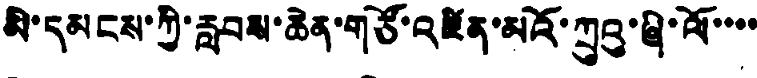མི་དམངས་ཀྱི་རླབས་ཆེན་གཙོ་འཛིན་མའོ་ཀུའུ་ཞི་ལོ་་་་
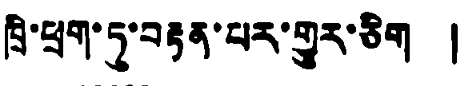ཁྲི་ཕྲག་ཏུ་བརྟན་པར་གྱུར་ཅིག །
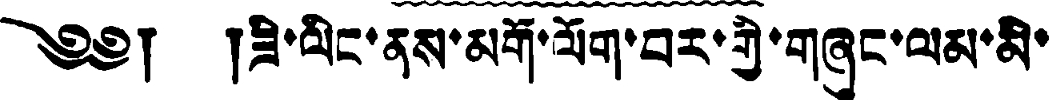༄༅། །ཟི་ལིང་ནས་མགོ་ལོག་བར་གྱི་གཞུང་ལམ་མི་
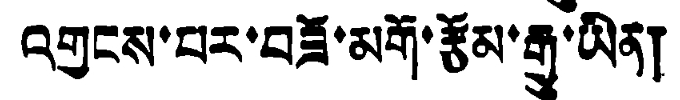འགྱངས་པར་བཟོ་མགོ་རྩོམ་རྒྱུ་ཡིན།
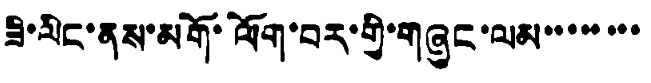ཟི་ལིང་ནས་མགོ་ལོག་བར་གྱི་གཞུང་ལམ་་་་་་་་་
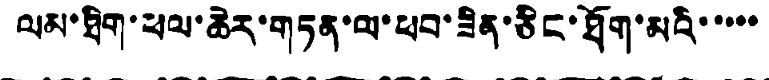ལམ་ཐིག་ཕལ་ཆེར་གཏན་ལ་ཕབ་ཟིན་ཅིང་ཐོག་མའི་་་་་
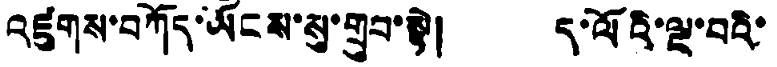འཛུགས་བཀོད་ཡོངས་སུ་གྲུབ་སྟེ། ད་ལོའི་ལྔ་བའི་
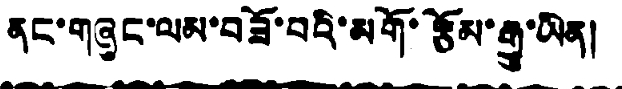ནང་གཞུང་ལམ་བཟོ་བའི་མགོ་རྩོམ་རྒྱུ་ཡིན།
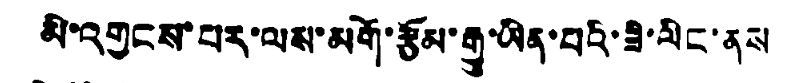མི་འགྱངས་པར་ལས་མགོ་རྩོམ་རྒྱུ་ཡིན་པའི་ཟི་ལིང་ནས
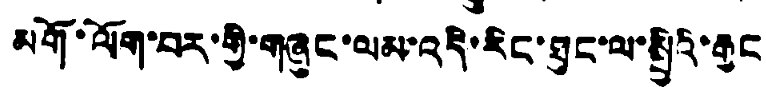མགོ་ལོག་བར་གྱི་གཞུང་ལམ་འདི་རིང་ཐུང་ལ་སྤྱིའི་རྒྱང
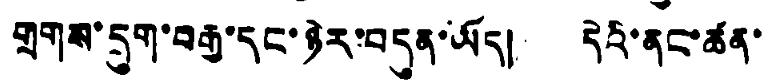གྲགས་དྲུག་བརྒྱ་དང་ཉེར་བདུན་ཡོད། དེའི་ནང་ཚན་
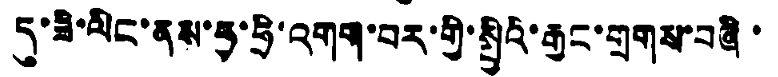དུ་ཟི་ལིང་ནས་ཧྭ་ཧྲི་འགག་བར་གྱི་སྤྱིའི་རྒྱང་གྲགས་བཞི་
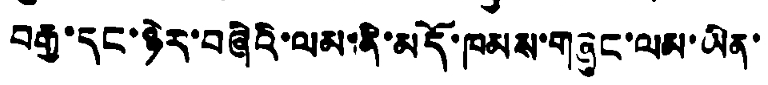བརྒྱ་དང་ཉེར་བཞིའི་ལམ་ནི་མདོ་ཁམས་གཞུང་ལམ་ཡིན་
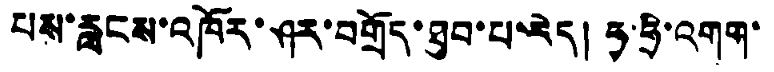པས་རླངས་འཁོར་ཤར་བགྲོད་ཐུབ་པ་རེད། ཧྭ་ཧྲི་འགག་
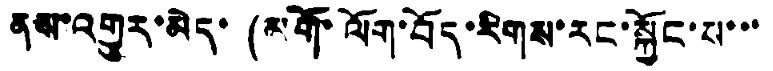ནས་འགྱུར་མེད་ (མགོ་ལོག་བོད་རིགས་རང་སྐྱོང་པ་་་
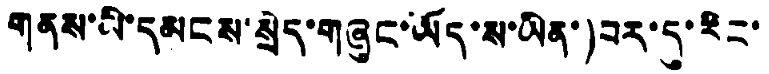གནས་མི་དམངས་སྲིད་གཞུང་ཡོད་ས་ཡིན་)བར་དུ་རིང་
